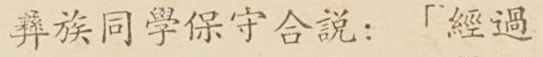彝族同學保守合說：「經過
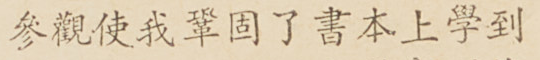參觀使我鞏固了書本上學到
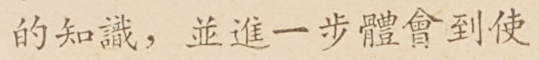的指示，並進一步體會到使
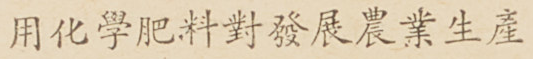用化學肥料對發展農業生產
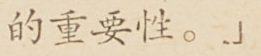的重要性。」
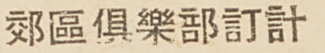郊區俱樂部訂計
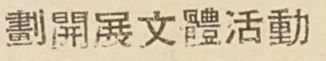劃開展文體活動
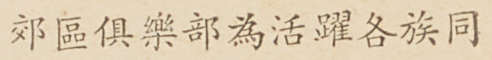郊區俱樂部為活躍各族同
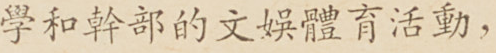學和幹部的文娛體育活動，
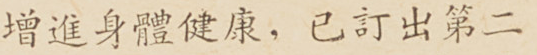增進身體健康，已訂出第二
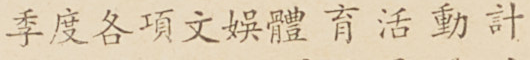季度各項文娛體育活動計
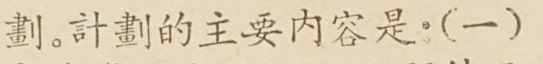劃。計劃的主要內容是：（一）
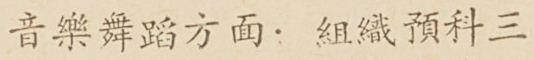音樂舞蹈方面：組織預科三
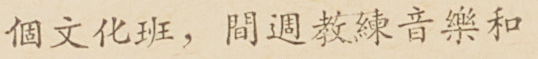各文化班，間週教練音樂和
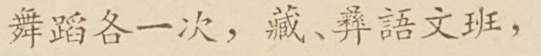舞蹈各一次，藏、彝語文班，
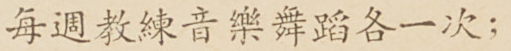每週教練音樂舞蹈各一次；
